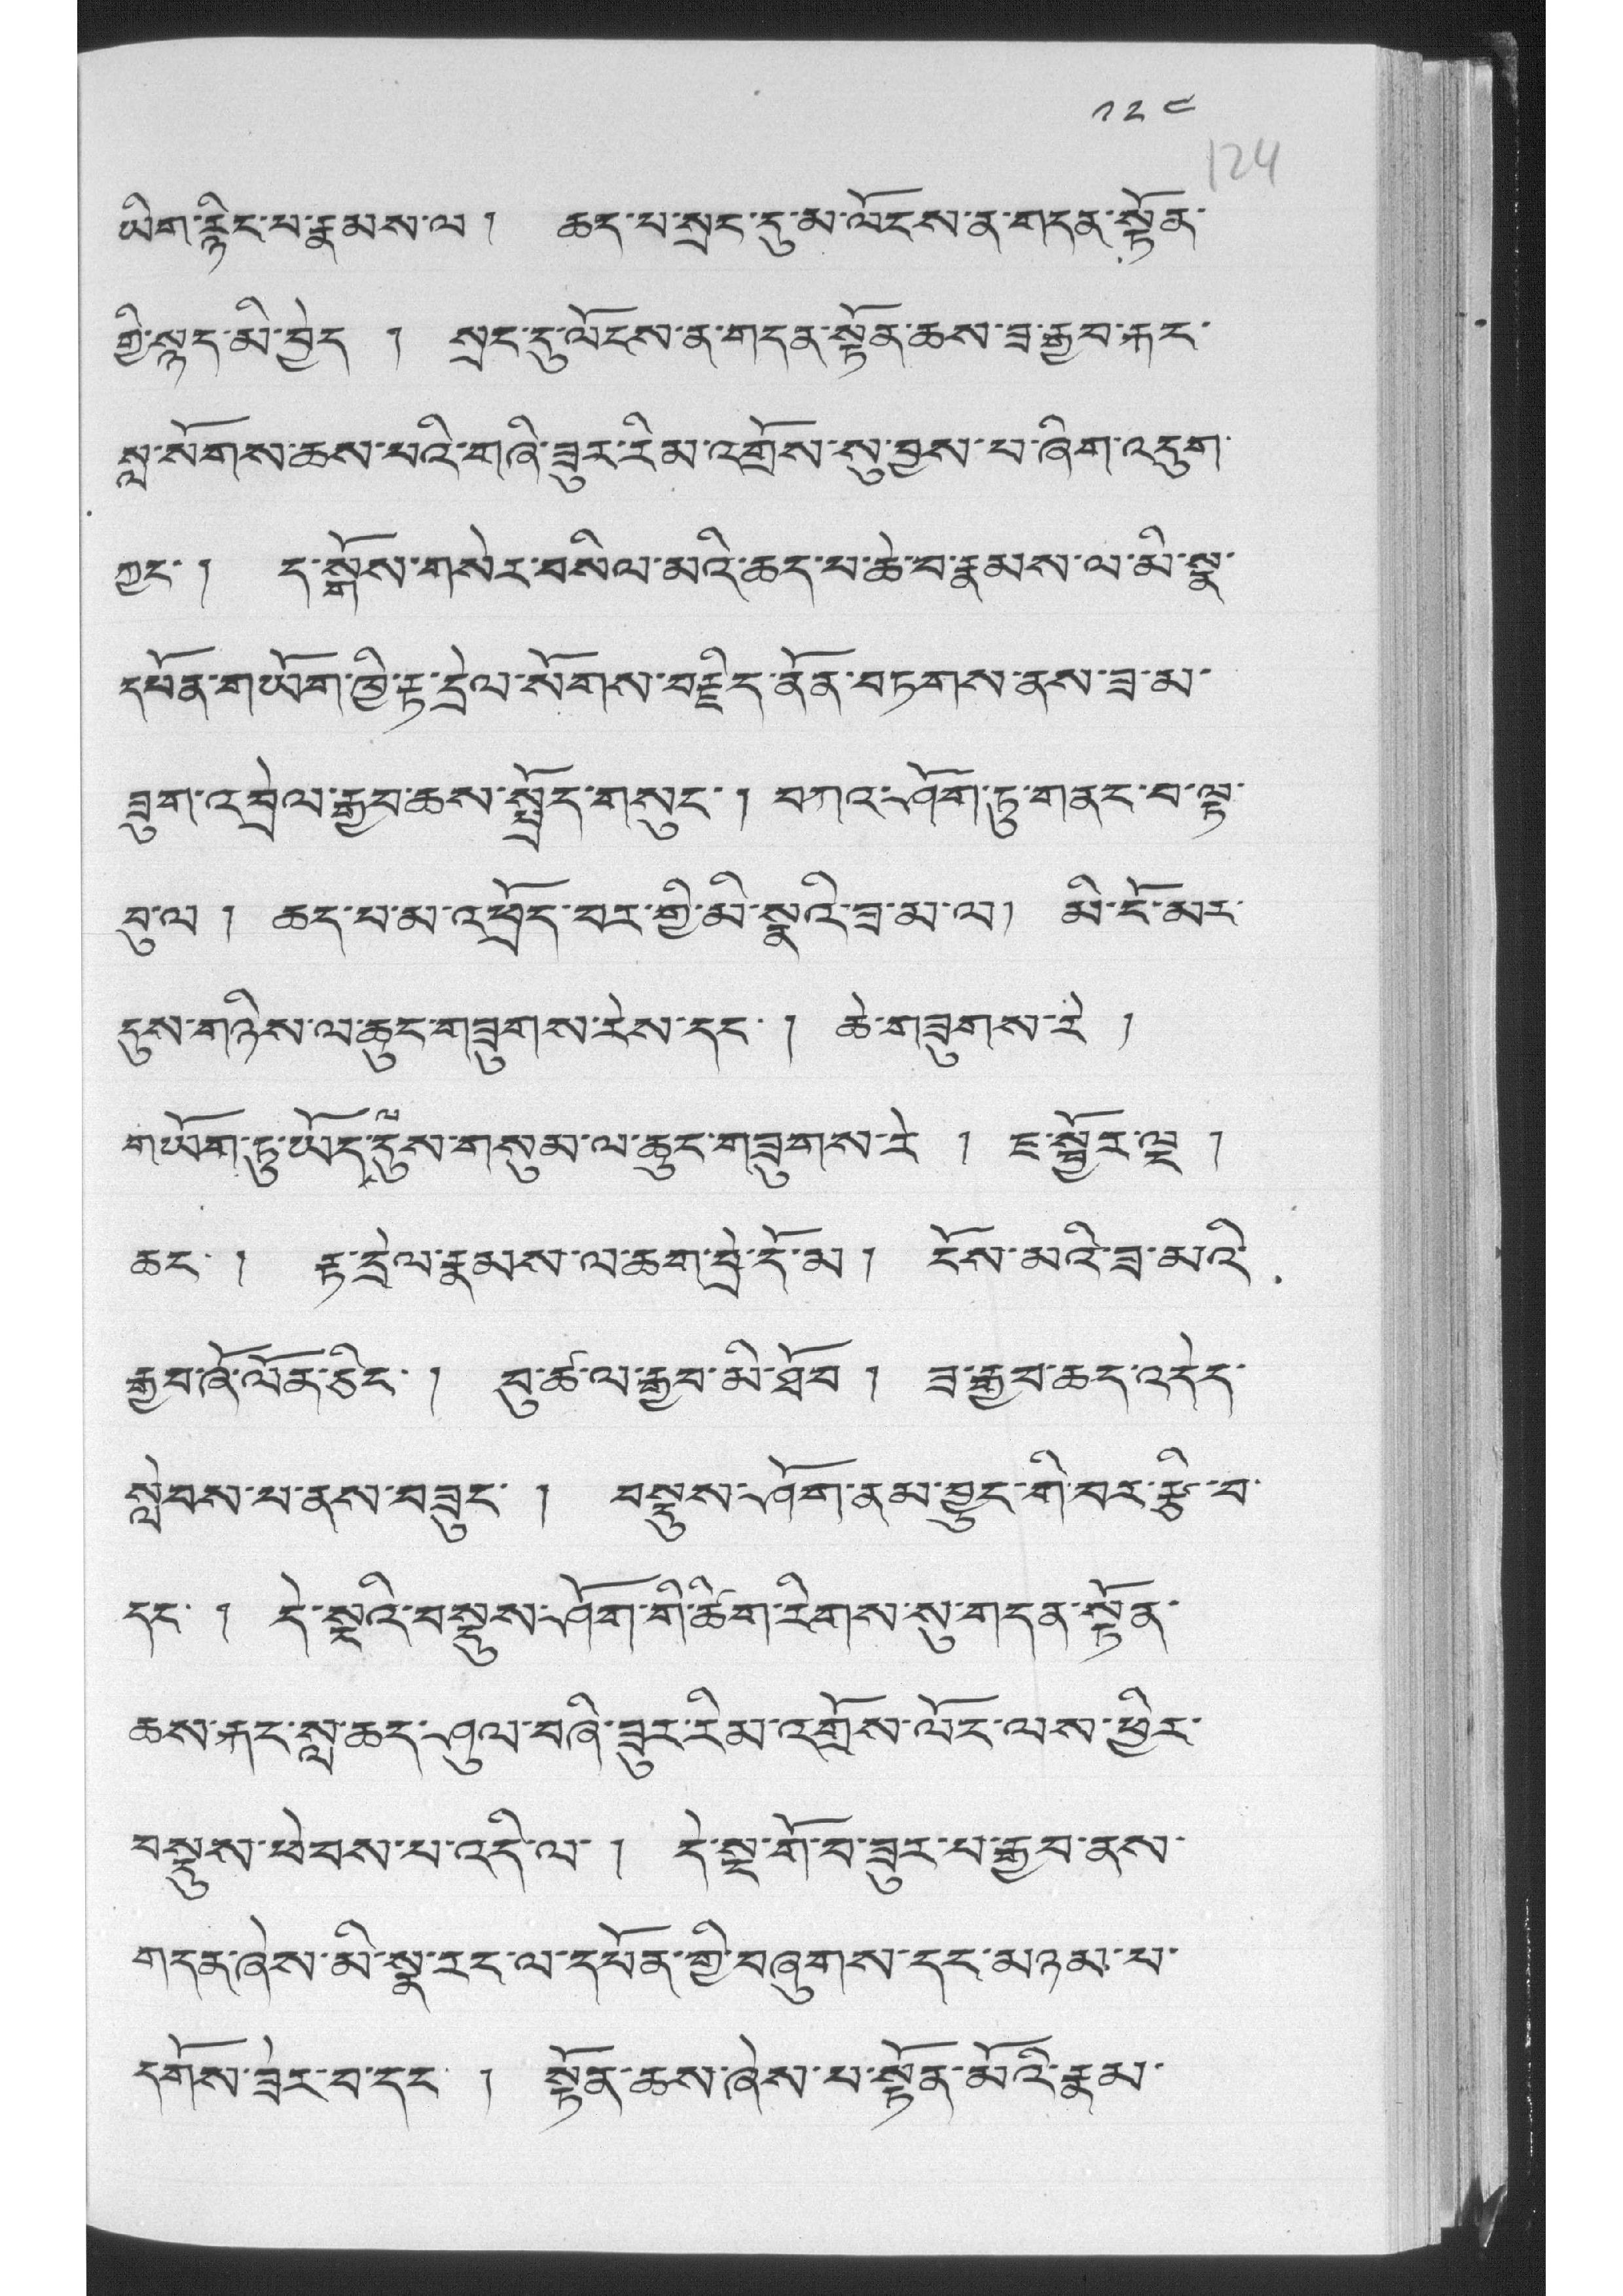༡༢༤
ཡིག་རྙིང་པ་རྣམས་ལ ། ཆད་པ་སྲང་དུ་མ་ལོངས་ན་གདན་སྟོན་
གྱི་སྙད་མི་བྱེད ། སྲང་དུ་ལོངས་ན་གདན་སྟོན་ཆས་ཟ་རྒྱབ་རྐང་
སླ་སོགས་ཆས་པའི་གཞི་ཟུར་རིམ་འགྲོས་སུ་བྱས་པ་ཞིག་འདུག
ཀྱང་ ། ད་སྒོས་གསེར་བསིལ་མའི་ཆད་པ་ཆེ་བ་རྣམས་ལ་མི་སྣ་
དཔོན་གཡོག་ཁྱི་རྟ་དྲེལ་སོགས་བརྗིད་ནོན་བཏགས་ནས་ཟ་མ་
ཟུག་འབྲེལ་རྒྱབ་ཆོས་སྤྲོད་གསུང་། བཀའ་ཤོག་ཏུ་གནང་བ་ལྟ་
བུ་ལ ། ཆད་པ་མ་འཕྲོད་བར་གྱི་མི་སྣའི་ཟ་མ་ལ། མི་ངོ་མར་
དུས་གཉིས་ལ་ཆུང་གཟུགས་རེས་དང་། ཆེ་གཟུགས་རེ །
གཡོག་ཏུ་ཡོད་ལ་དུས་གསུམ་ལ་ཆུང་གཟུགས་རེ ། ཇ་སྦྱོར་ལྔ །
ཆང་ ། རྟ་དྲེལ་རྣམས་ལ་ཆག་བྲེ་དོ་མ། ངོས་མའི་ཟ་མའི་
རྒྱབ་ཞོ་ལོན་ཅིང་ ། བུ་ཚ་ལ་རྒྱབ་མི་ཐོབ ། ཟ་རྒྱབ་ཆད་འདེད་
སླེབས་པ་ནས་བཟུང་ ། བསྡུས་ཤོག་ནམ་བྱུང་གི་བར་རྩི་བ་
དང་ ། དེ་སྔའི་བསྡུས་ཤོག་གི་ཚིག་རིགས་སུ་གདན་སྟོན་
ཆས་རྐང་སླ་ཆད་ཤུལ་བཞི་ཟུར་རིམ་འགྲོས་ལོང་ལས་ཕྱིར་
བསྡུས་ཕེབས་པ་འདི་ལ་ ། དེ་སྔ་གོ་བ་ཟུར་པ་རྒྱབ་ནས་
གདན་ཞེས་མི་སྣ་རང་ལ་དཔོན་གྱི་བཞུགས་དང་མཉམ་པ་
དགོས་ཟེར་བ་དང་ ། སྟོན་ཆས་ཞེས་པ་སྟོན་མོའི་རྣམ་
